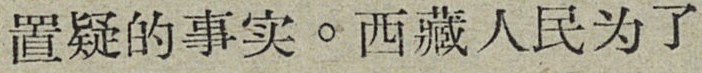置疑的事实。西藏人民为了
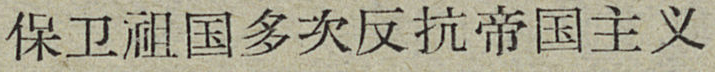保卫祖国多次反抗帝国主义
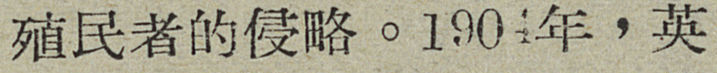殖民者的侵略。1904年，英
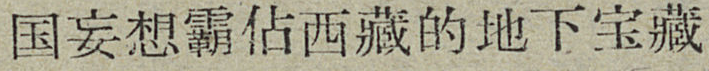国妄想霸佔西藏的地下宝藏
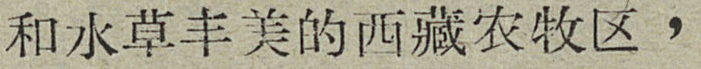和水草丰美的西藏农牧区，
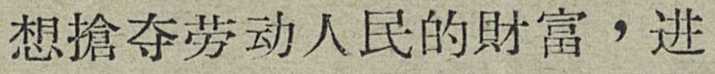想搶夺劳动人民的財富，进
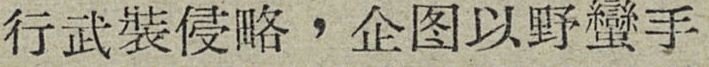行武装侵略，企图以野蠻手
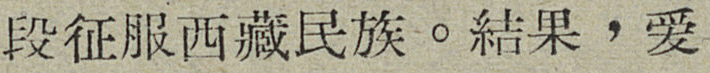段征服西藏民族。結果，爱
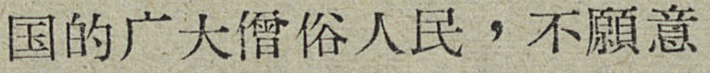国的广大僧俗人民，不願意
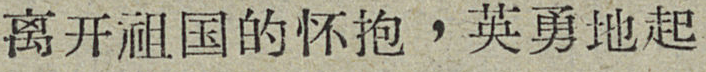离开祖国的怀抱，英勇地起
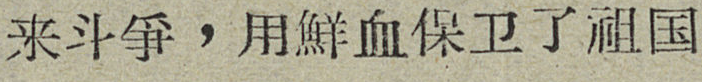来斗爭，用鮮血保卫了祖国
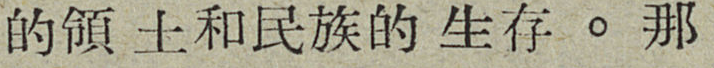的領土和民族的生存。那
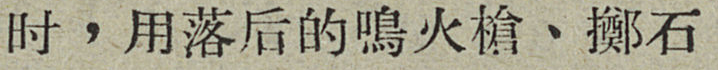时，用落后的鳴火槍、擲石
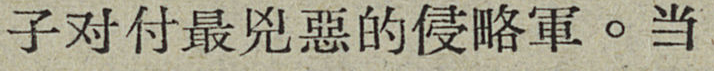子对付最兇惡的侵略軍。当
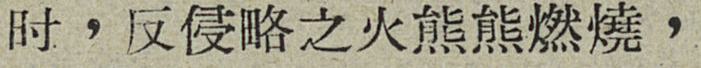时，反侵略之火熊熊燃燒，
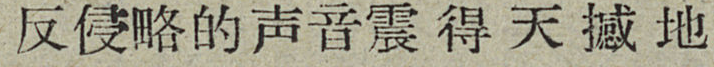反侵略的声音震得天撼地
